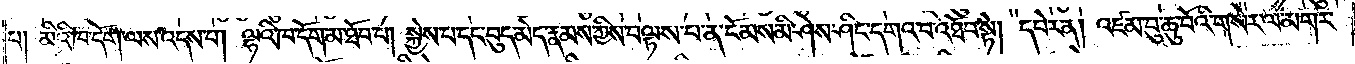པ། མིའི་ཁ་དོག་ལས་འདས་པ། ལྷའི་ཁ་དོག་མ་ཐོབ་པ། སྐྱེས་པ་དང་བུད་མེད་རྣམས་ཀྱིས་བལྟས་པ་ན་ངོམས་མི་ཤེས་ཤིང་དགའ་བ་འཐོབ་སྟེ། དཔེར་ན། འཛམ་བུ་ཆུ་བོའི་གསེར་ལ་མགར་
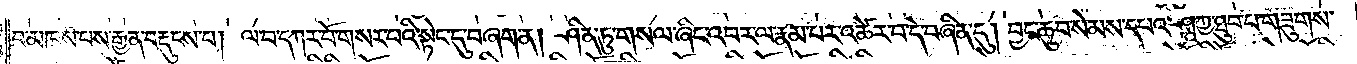བ་མཁས་པས་རྒྱན་བརྡུངས་པ། ལ་བ་དཀར་པོ་གསར་པའི་སྟེང་དུ་བཞག་ན། ཤིན་ཏུ་གསལ་ཞིང་འབར་ལ་རྣམ་པར་འཚེར་བ་དེ་བཞིན་དུ། བྱང་ཆུབ་སེམས་དཔའ་ཤཱཀྱ་ཐུབ་པ་གཟུགས་
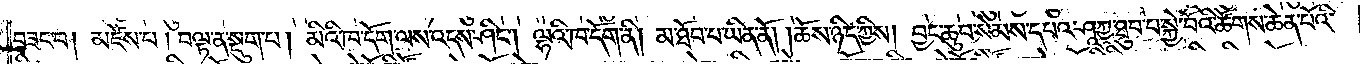བཟང་བ། མཛེས་པ། བལྟ་ན་སྡུག་པ། མིའི་ཁ་དོག་ལས་འདས་ཤིང༌། ལྷའི་ཁ་དོག་ནི། མ་ཐོབ་པ་ཡིན་ནོ། །ཆོས་ཉིད་ཀྱིས། བྱང་ཆུབ་སེམས་དཔའ་ཤཱཀྱ་ཐུབ་པ་སྐྱེ་བོའི་ཚོགས་ཆེན་པོའི་
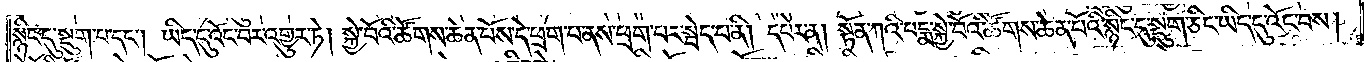སྙིང་དུ་སྡུག་པ་དང༌། ཡིད་དུ་འོང་བར་འགྱུར་ཏེ། སྐྱེ་བོའི་ཚོགས་ཆེན་པོས་དེ་ཕྲག་པར་སྦེད་པ་ནི། དཔེར་ན། སྟོན་ཀའི་པདྨ་སྐྱེ་བོའི་ཚོགས་ཆེན་པོའི་སྙིང་དུ་སྡུག་ཅིང་ཡིད་དུ་འོང་བས།
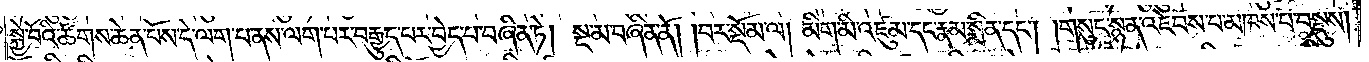སྐྱེ་བོའི་ཚོགས་ཆེན་པོས་དེ་ལག་པ་ནས་ལག་པར་བརྒྱུད་པར་བྱེད་པ་བཞིན་ཏེ། སྔ་མ་བཞིན་ནོ། །བར་སྡོམ་ལ། མིག་མི་འཛུམ་དང་རྣམ་སྨིན་དང༌། །གསུང་སྙན་འཇེབས་པ་མཁས་པ་བསྡུས།
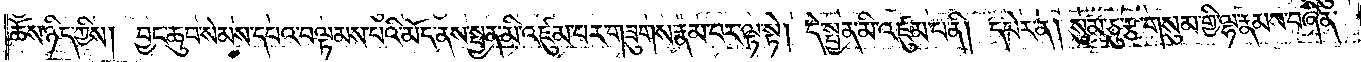ཆོས་ཉིད་ཀྱིས། བྱང་ཆུབ་སེམས་དཔའ་བལྟམས་པའི་མོད་ནས་སྤྱན་མི་འཛུམ་པར་གཟུགས་རྣམ་པར་ལྟ་སྟེ། དེ་སྤྱན་མི་འཛུམ་པ་ནི། དཔེར་ན། སུམ་ཅུ་རྩ་གསུམ་གྱི་ལྷ་རྣམས་བཞིན་
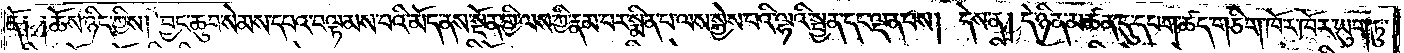ནོ། །ཆོས་ཉིད་ཀྱིས། བྱང་ཆུབ་སེམས་དཔའ་བལྟམས་པའི་མོད་ནས་སྔོན་གྱི་ལས་ཀྱི་རྣམ་པར་སྨིན་པ་ལས་སྐྱེས་པའི་ལྷའི་སྤྱན་དང་ལྡན་པས། དེས་ན། དེ་ཉིན་མཚན་དུ་དཔག་ཚད་གཅིག་ཁོ་ར་ཁོར་ཡུག་ཏུ་
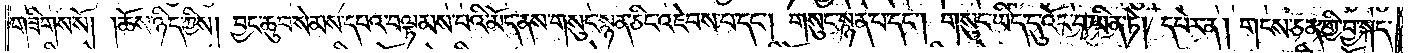གཟིགས་སོ། །ཆོས་ཉིད་ཀྱིས། བྱང་ཆུབ་སེམས་དཔའ་བལྟམས་པའི་མོད་ནས་གསུང་སྙན་ཅིང་འཇེབས་པ་དང༌། གསུང་སྙན་པ་དང༌། གསུང་ཡིད་དུ་འོང་བ་ཡིན་ཏེ། དཔེར་ན། གངས་ཅན་གྱི་བྱ་སྐད་
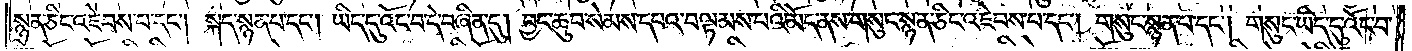སྙན་ཅིང་འཇེབས་པ་དང༌། སྐད་སྙན་པ་དང༌། ཡིད་དུ་འོང་བ་དེ་བཞིན་དུ། བྱང་ཆུབ་སེམས་དཔའ་བལྟམས་པའི་མོད་ནས་གསུང་སྙན་ཅིང་འཇེབས་པ་དང༌། གསུང་སྙན་པ་དང༌། གསུང་ཡིད་དུ་འོང་བ་
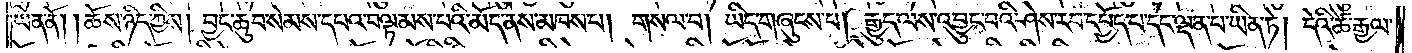ཡིན་ནོ། །ཆོས་ཉིད་ཀྱིས། བྱང་ཆུབ་སེམས་དཔའ་བལྟམས་པའི་མོད་ནས་མཁས་པ། གསལ་བ། ཡིད་གཞུངས་པ། རྒྱུད་ལས་འབྱུང་བའི་ཤེས་རབ་དཔྱོད་པ་དང་ལྡན་པ་ཡིན་ཏེ། དེའི་ཚེ་རྒྱལ་
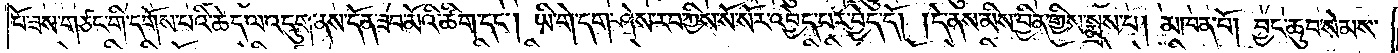པོ་ཟས་གཙང་གི་དགོས་པའི་ཆེད་ལ་འདུག་ནས་དོན་ཟབ་མོའི་ཚིག་དང༌། ཡི་གེ་དག་ཤེས་རབ་ཀྱིས་སོ་སོར་འབྱེད་པར་བྱེད་དོ། །དེ་ནས་མིས་བྱིན་གྱིས་སྨྲས་པ། མཁན་པོ། བྱང་ཆུབ་སེམས་
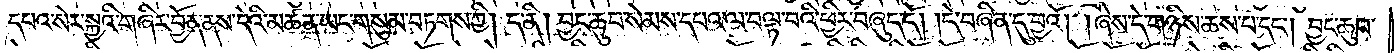དཔའ་སེར་སྐྱའི་གཞིར་བྱོན་ནས་དེའི་མཚན་ཡང་གསུམ་བཏགས་ཀྱི། ད་ནི། བྱང་ཆུབ་སེམས་དཔའ་ལ་བལྟ་བའི་ཕྱིར་བཞུད་དོ། །དེ་བཞིན་དུ་བྱའོ། །ཞེས་དེ་གཉིས་ཆས་པ་དང༌། བྱང་ཆུབ་
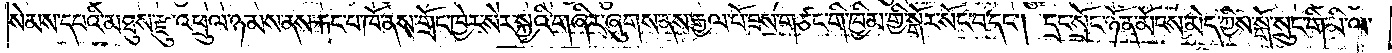སེམས་དཔའི་མཐུས་རྫུ་འཕྲུལ་ཉམས་ནས་རྐང་པ་ཁོ་ནས་གྲོང་ཁྱེར་སེར་སྐྱའི་གཞིར་ཞུགས་ནས་རྒྱལ་པོ་ཟས་གཙང་གི་ཁྱིམ་གྱི་སྒོར་སོང་བ་དང༌། དྲང་སྲོང་ཉོན་མོངས་མེད་ཀྱིས་སྒོ་སྲུང་གི་མི་ལ་
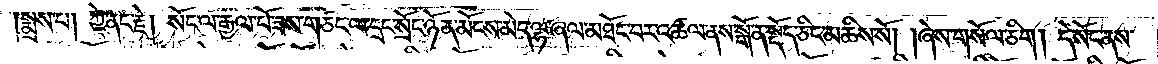སྨྲས་པ། ཀྱེ་ནང་རྗེ། སོང་ལ་རྒྱལ་པོ་ཟས་གཙང་ལ་དྲང་སྲོང་ཉོན་མོངས་མེད་ལྷ་ཞལ་མཐོང་བར་འཚལ་ནས་སྒོ་ན་སྡོད་ཅིང་མཆིས་སོ། །ཞེས་གསོལ་ཅིག །དེ་སོང་ནས་
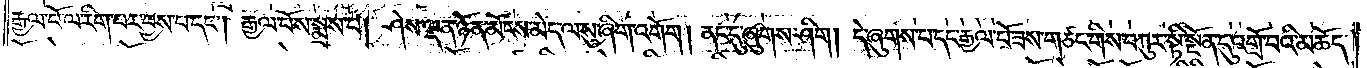རྒྱལ་པོ་ལ་རིག་པར་བྱས་པ་དང༌། རྒྱལ་པོས་སྨྲས་པ། ཤེས་ལྡན་ཉོན་མོངས་མེད་ལ་སུ་ཞིག་འགོག །ནང་དུ་ཞུགས་ཤིག །དེ་ཞུགས་པ་དང་རྒྱལ་པོ་ཟས་གཙང་གིས་བཀུར་སྟི་སྔོན་དུ་འགྲོ་བའི་མཆོད་
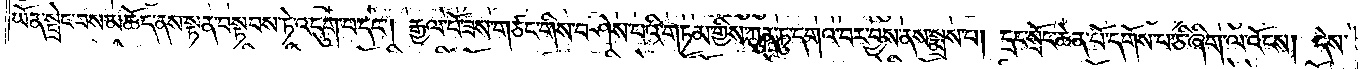ཡོན་སྦྲེང་བས་མཆོད་ནས་སྟན་བསྟབས་ཏེ་འདུག་པ་དང༌། རྒྱལ་པོ་ཟས་གཙང་གིས་བཤེས་པའི་གཏམ་གྱིས་ཀུན་ཏུ་དགའ་བར་བྱས་ནས་སྨྲས་པ། དྲང་སྲོང་ཆེན་པོ་དགོས་པ་ཅི་ཞིག་ལ་འོངས། དེས་
